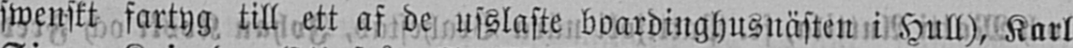swenskt fartyg till ett af de usslaste boardingshusnästen i Hull), Karl
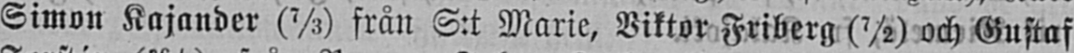Simon Kajander (7/3) från S:t Marie, Viktor Friberg (7/2) och Gustaf
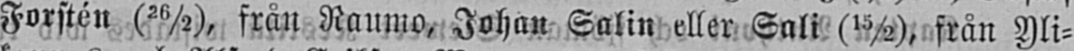Forstén (26/2), från Raumo, Johan Salin eller Sali (15/2), från Yli-
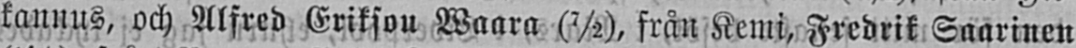kannus, och Alfred Erikson Waara (7/2), från Kemi, Fredrik Saarinen
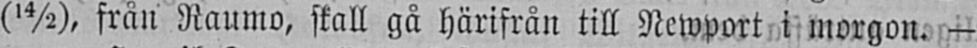(14/2), från Raumo, skall gå härifrån till Newport i morgon. -
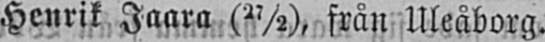Henrik Jaara (27/2), från Uleåborg.
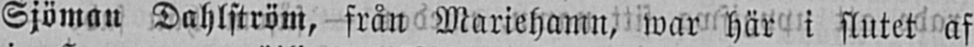Sjöman Dahlström, från Mariehamn, war här i slutet af
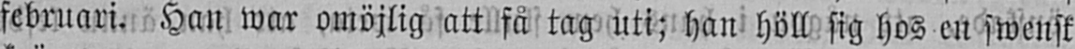februari. Han war omöjlig att få tag uti; han höll sig hos en swensk
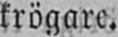krögare.
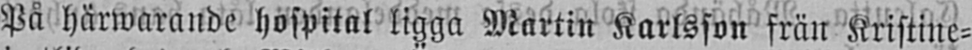På härwarande hospital ligga Martin Karlsson frän Kristine-
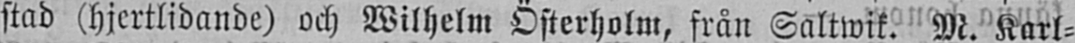stad (hjertlidande) och Wilhelm Österholm, från Saltwik. M. Karl-
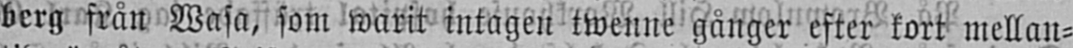berg från Wasa, som warit intagen twenne gånger efter kort mellan-
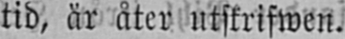tid, är åter utskrifwen.
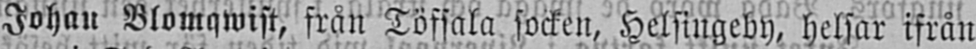Johan Blomqwist, från Töfsala socken, Helsingeby, helsar ifrån
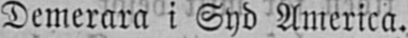Demerara i Syd America.
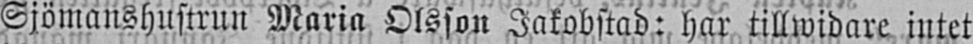Sjömanshustrun Maria Olsson Jakobstad: har tillwidare intet
